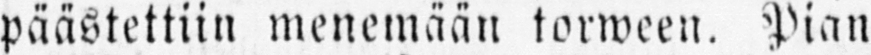päästettiin menemään torween. Pian
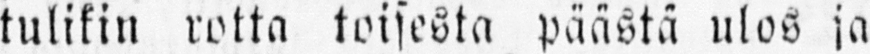tulikin rotta toisesta päästä ulos ja
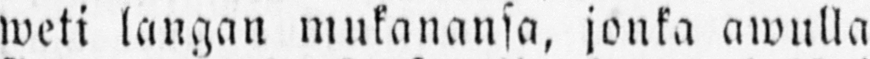weti langan mukanansa, jonka awulla
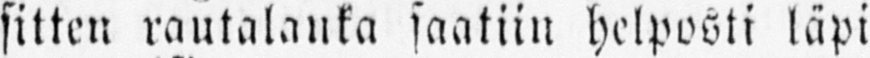sitten rautalanka saatiin helposti läpi
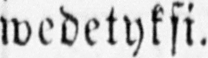wedetyksi.
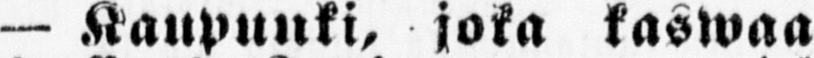— Kaupunki, joka kaswaa
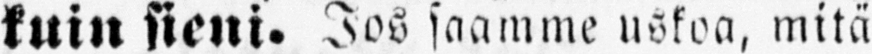kuin sieni. Jos saamme uskoa, mitä
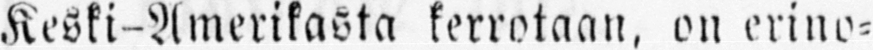Keski-Amerikasta kerrotaan, on erino-
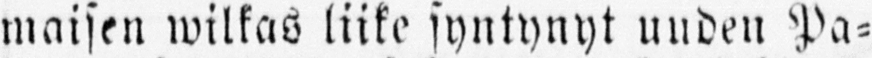maisen wilkas liike syntynyt uuden Pa-
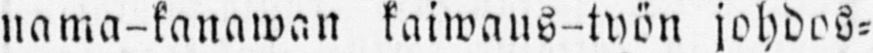nama-kanawan kaiwaus-työn johdos-
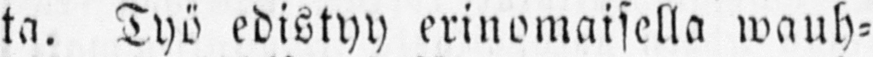ta. Työ edistyy erinomaisella wauh-
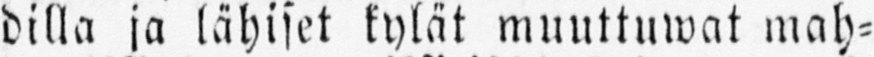dilla ja lähiset kylät muuttuwat mah-
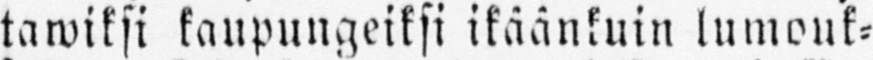tawiksi kaupungeiksi ikäänkuin lumouk-
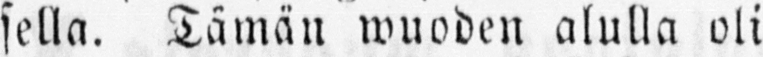sella. Tämän wuoden alulla oli Co
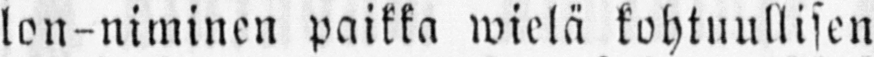lon-niminen paikka wielä kohtuullisen
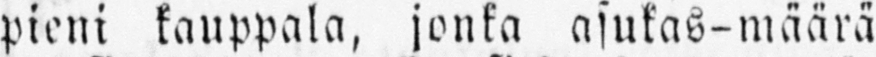pieni kauppala, jonka asukas-määrä
